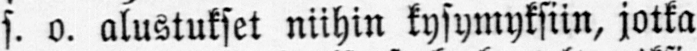s. o. alustukset niihin kysymyksiin, jotka
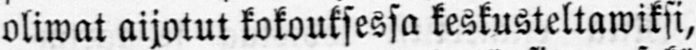oliwat aijotut kokouksessa keskusteltawiksi,
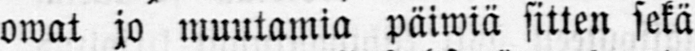owat jo muutamia päiwiä sitten sekä
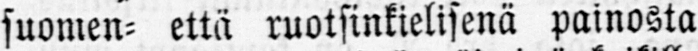suomen- että ruotsinkielisenä painosta
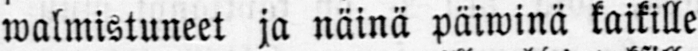walmistuneet ja näinä päiwinä kaikille
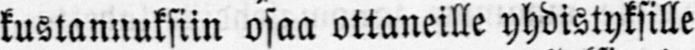kustannuksiin osaa ottaneille yhdistyksille
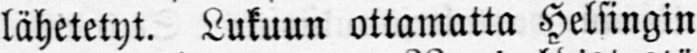lähetetyt. Lukuun ottamatta Helsingin
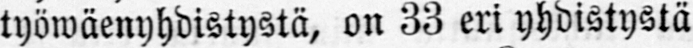työwäenyhdistystä, on 33 eri yhdistystä
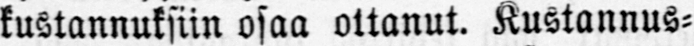kustannuksiin osaa ottanut. Kustannus-
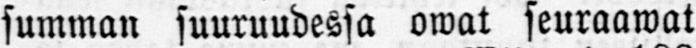summan suuruudessa owat seuraawat
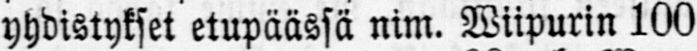yhdistykset etupäässä nim. Wiipurin 100
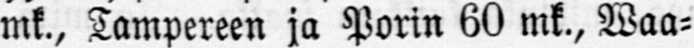mk., Tampereen ja Porin 60 mk., Waa-
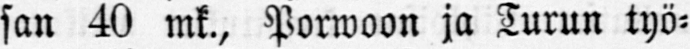san 40 mk., Porwoon ja Turun työ-
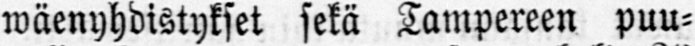wäenyhdistykset sekä Tampereen puu-
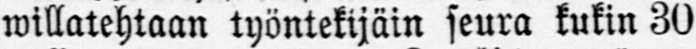willatehtaan työntekijäin seura kukin 30
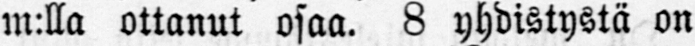m:lla ottanut osaa. 8 yhdistystä on
